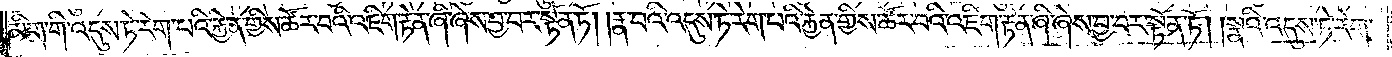མིག་གི་འདུས་ཏེ་རེག་པའི་རྐྱེན་གྱིས་ཚོར་བའི་འཇིག་རྟེན་ཞི་ཞེས་བྱ་བར་སྟོན་ཏོ། །རྣ་བའི་འདུས་ཏེ་རེག་པའི་རྐྱེན་གྱིས་ཚོར་བའི་འཇིག་རྟེན་ཞི་ཞེས་བྱ་བར་སྟོན་ཏོ། །སྣའི་འདུས་ཏེ་རེག་
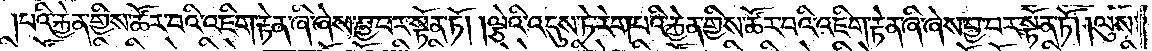པའི་རྐྱེན་གྱིས་ཚོར་བའི་འཇིག་རྟེན་ཞི་ཞེས་བྱ་བར་སྟོན་ཏོ། །ལྕེའི་འདུས་ཏེ་རེག་པའི་རྐྱེན་གྱིས་ཚོར་བའི་འཇིག་རྟེན་ཞི་ཞེས་བྱ་བར་སྟོན་ཏོ། །ལུས་
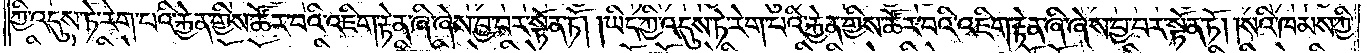ཀྱི་འདུས་ཏེ་རེག་པའི་རྐྱེན་གྱིས་ཚོར་བའི་འཇིག་རྟེན་ཞི་ཞེས་བྱ་བར་སྟོན་ཏོ། །ཡིད་ཀྱི་འདུས་ཏེ་རེག་པའི་རྐྱེན་གྱིས་ཚོར་བའི་འཇིག་རྟེན་ཞི་ཞེས་བྱ་བར་སྟོན་ཏོ། །སའི་ཁམས་ཀྱི་
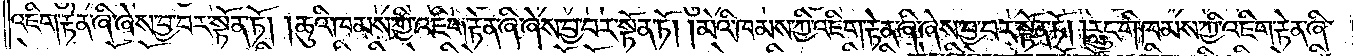འཇིག་རྟེན་ཞི་ཞེས་བྱ་བར་སྟོན་ཏོ། །ཆུའི་ཁམས་ཀྱི་འཇིག་རྟེན་ཞི་ཞེས་བྱ་བར་སྟོན་ཏོ། །མེའི་ཁམས་ཀྱི་འཇིག་རྟེན་ཞི་ཞེས་བྱ་བར་སྟོན་ཏོ། །རླུང་གི་ཁམས་ཀྱི་འཇིག་རྟེན་ཞི་
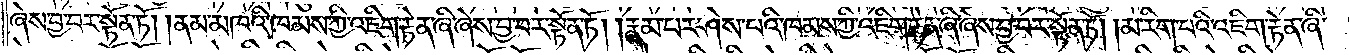ཞེས་བྱ་བར་སྟོན་ཏོ། །ནམ་མཁའི་ཁམས་ཀྱི་འཇིག་རྟེན་ཞི་ཞེས་བྱ་བར་སྟོན་ཏོ། །རྣམ་པར་ཤེས་པའི་ཁམས་ཀྱི་འཇིག་རྟེན་ཞི་ཞེས་བྱ་བར་སྟོན་ཏོ། །མ་རིག་པའི་འཇིག་རྟེན་ཞི་
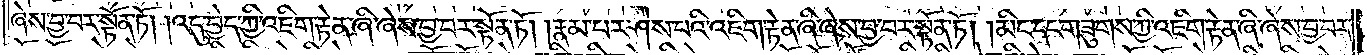ཞེས་བྱ་བར་སྟོན་ཏོ། །འདུ་བྱེད་ཀྱི་འཇིག་རྟེན་ཞི་ཞེས་བྱ་བར་སྟོན་ཏོ། །རྣམ་པར་ཤེས་པའི་འཇིག་རྟེན་ཞི་ཞེས་བྱ་བར་སྟོན་ཏོ། །མིང་དང་གཟུགས་ཀྱི་འཇིག་རྟེན་ཞི་ཞེས་བྱ་བར་
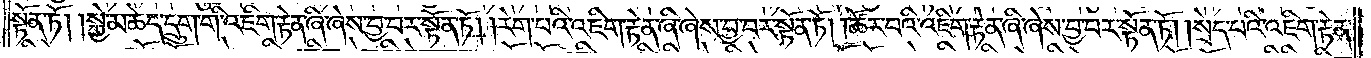སྟོན་ཏོ། །སྐྱེ་མཆེད་དྲུག་གི་འཇིག་རྟེན་ཞི་ཞེས་བྱ་བར་སྟོན་ཏོ། །རེག་པའི་འཇིག་རྟེན་ཞི་ཞེས་བྱ་བར་སྟོན་ཏོ། །ཚོར་བའི་འཇིག་རྟེན་ཞི་ཞེས་བྱ་བར་སྟོན་ཏོ། །སྲེད་པའི་འཇིག་རྟེན་
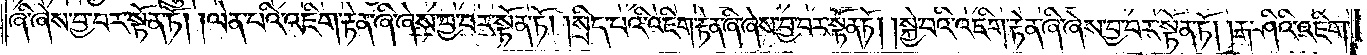ཞི་ཞེས་བྱ་བར་སྟོན་ཏོ། །ལེན་པའི་འཇིག་རྟེན་ཞི་ཞེས་བྱ་བར་སྟོན་ཏོ། །སྲིད་པའི་འཇིག་རྟེན་ཞི་ཞེས་བྱ་བར་སྟོན་ཏོ། །སྐྱེ་བའི་འཇིག་རྟེན་ཞི་ཞེས་བྱ་བར་སྟོན་ཏོ། །རྒ་ཤིའི་འཇིག་
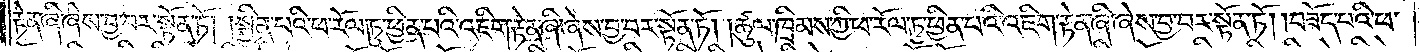རྟེན་ཞི་ཞེས་བྱ་བར་སྟོན་ཏོ། །སྦྱིན་པའི་ཕ་རོལ་ཏུ་ཕྱིན་པའི་འཇིག་རྟེན་ཞི་ཞེས་བྱ་བར་སྟོན་ཏོ། །ཚུལ་ཁྲིམས་ཀྱི་ཕ་རོལ་ཏུ་ཕྱིན་པའི་འཇིག་རྟེན་ཞི་ཞེས་བྱ་བར་སྟོན་ཏོ། །བཟོད་པའི་ཕ་
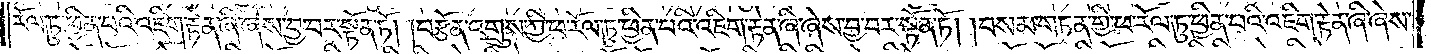རོལ་ཏུ་ཕྱིན་པའི་འཇིག་རྟེན་ཞི་ཞེས་བྱ་བར་སྟོན་ཏོ། །བརྩོན་འགྲུས་ཀྱི་ཕ་རོལ་ཏུ་ཕྱིན་པའི་འཇིག་རྟེན་ཞི་ཞེས་བྱ་བར་སྟོན་ཏོ། །བསམ་གཏན་གྱི་ཕ་རོལ་ཏུ་ཕྱིན་པའི་འཇིག་རྟེན་ཞི་ཞེས་
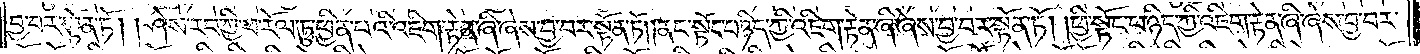བྱ་བར་སྟོན་ཏོ། །ཤེས་རབ་ཀྱི་ཕ་རོལ་ཏུ་ཕྱིན་པའི་འཇིག་རྟེན་ཞི་ཞེས་བྱ་བར་སྟོན་ཏོ། །ནང་སྟོང་པ་ཉིད་ཀྱི་འཇིག་རྟེན་ཞི་ཞེས་བྱ་བར་སྟོན་ཏོ། །ཕྱི་སྟོང་པ་ཉིད་ཀྱི་འཇིག་རྟེན་ཞི་ཞེས་བྱ་བར་
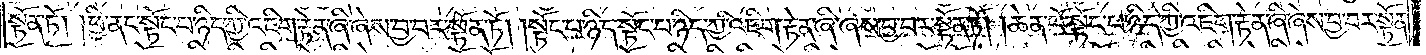སྟོན་ཏོ། །ཕྱི་ནང་སྟོང་པ་ཉིད་ཀྱི་འཇིག་རྟེན་ཞི་ཞེས་བྱ་བར་སྟོན་ཏོ། །སྟོང་པ་ཉིད་སྟོང་པ་ཉིད་ཀྱི་འཇིག་རྟེན་ཞི་ཞེས་བྱ་བར་སྟོན་ཏོ། །ཆེན་པོ་སྟོང་པ་ཉིད་ཀྱི་འཇིག་རྟེན་ཞི་ཞེས་བྱ་བར་སྟོན་
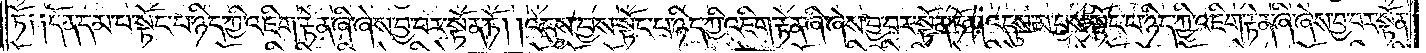ཏོ༑ ༑དོན་དམ་པ་སྟོང་པ་ཉིད་ཀྱི་འཇིག་རྟེན་ཞི་ཞེས་བྱ་བར་སྟོན་ཏོ། །འདུས་བྱས་སྟོང་པ་ཉིད་ཀྱི་འཇིག་རྟེན་ཞི་ཞེས་བྱ་བར་སྟོན་ཏོ། །འདུས་མ་བྱས་སྟོང་པ་ཉིད་ཀྱི་འཇིག་རྟེན་ཞི་ཞེས་བྱ་བར་སྟོན་
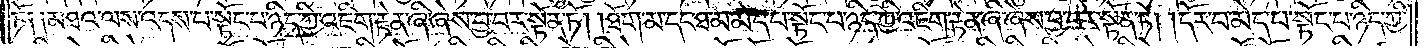ཏོ༑ ༑མཐའ་ལས་འདས་པ་སྟོང་པ་ཉིད་ཀྱི་འཇིག་རྟེན་ཞི་ཞེས་བྱ་བར་སྟོན་ཏོ། །ཐོག་མ་དང་ཐ་མ་མེད་པ་སྟོང་པ་ཉིད་ཀྱི་འཇིག་རྟེན་ཞི་ཞེས་བྱ་བར་སྟོན་ཏོ། །དོར་བ་མེད་པ་སྟོང་པ་ཉིད་ཀྱི་
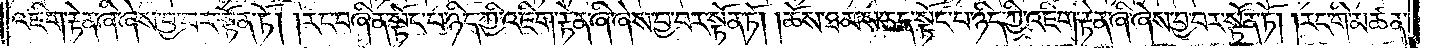འཇིག་རྟེན་ཞི་ཞེས་བྱ་བར་སྟོན་ཏོ། །རང་བཞིན་སྟོང་པ་ཉིད་ཀྱི་འཇིག་རྟེན་ཞི་ཞེས་བྱ་བར་སྟོན་ཏོ། །ཆོས་ཐམས་ཅད་སྟོང་པ་ཉིད་ཀྱི་འཇིག་རྟེན་ཞི་ཞེས་བྱ་བར་སྟོན་ཏོ། །རང་གི་མཚན་
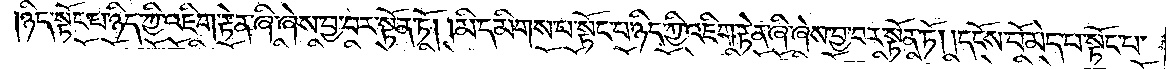ཉིད་སྟོང་པ་ཉིད་ཀྱི་འཇིག་རྟེན་ཞི་ཞེས་བྱ་བར་སྟོན་ཏོ། །མི་དམིགས་པ་སྟོང་པ་ཉིད་ཀྱི་འཇིག་རྟེན་ཞི་ཞེས་བྱ་བར་སྟོན་ཏོ། །དངོས་པོ་མེད་པ་སྟོང་པ་
